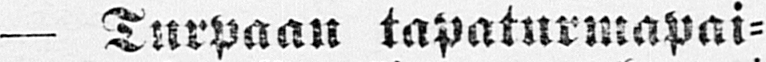— Turpaan tapaturmapai-
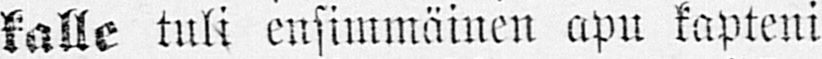kalle tuli ensimmäinen apu kapteni
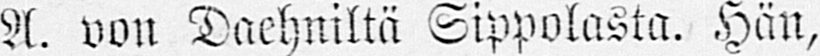A. von Daehniltä Sippolasta. Hän,
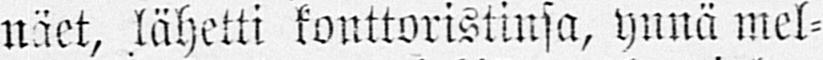näet, lähetti konttoristinsa, ynnä mel-
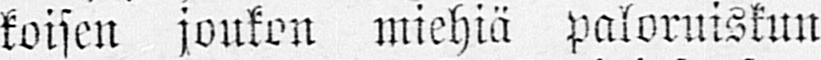koisen joukon miehiä paloruiskun
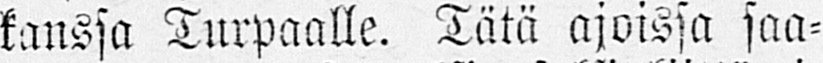kanssa Turpaalle. Tätä ajoissa saa-
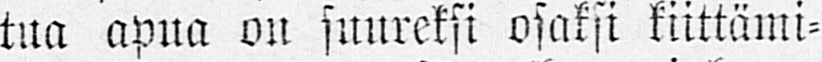tua apua on suureksi osaksi kiittämi-
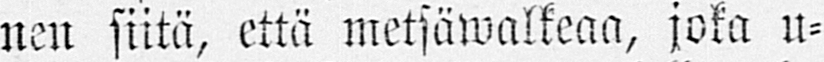nen siitä, että metsäwalkeaa, joka u-
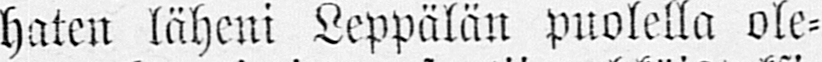haten läheni Leppälän puolella ole-
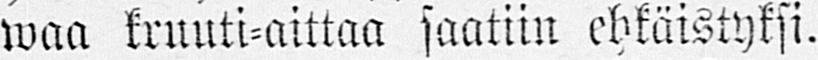waa kruuti-aittaa saatiin ehkäistyksi.
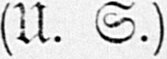(U. S.)
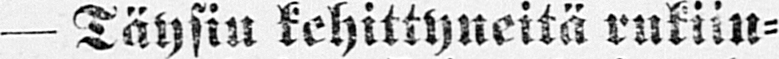— Täysin kehittyneitä rukiin-
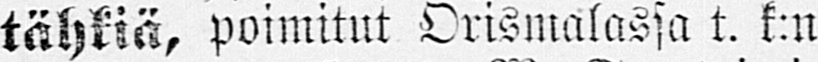tähkiä, poimitut Orismalassa t. k:n
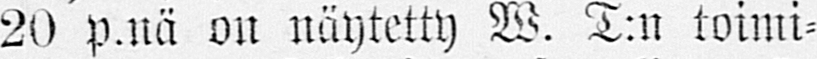20 p.nä on näytetty W. T:n toimi-
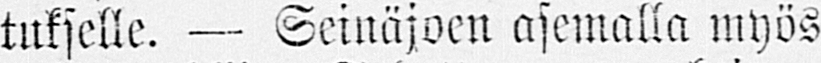tukselle. — Seinäjoen asemalla myös
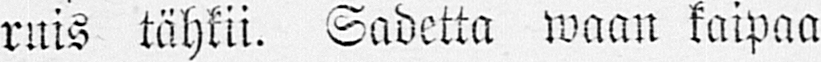ruis tähkii. Sadetta waan kaipaa
